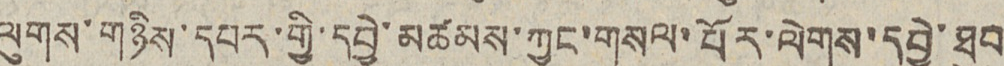ལུགས་གཉིས་དཔར་གྱི་དབྱེ་མཚམས་ཀྱང་གསལ་པོར་ལེགས་དབྱེ་ཐུབ
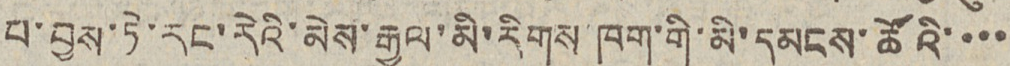པ་བྱས་ཏེ་རང་རེའི་མེས་རྒྱལ་མི་རིགས་ཁག་གི་མི་དམངས་ཚོའི་་་་
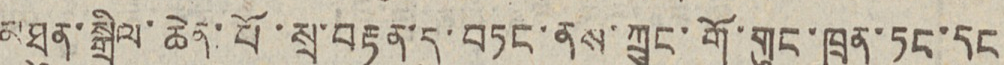མཐུན་སྒྲིལ་ཆེན་པོ་སྲ་བརྟན་དུ་བཏང་ནས་ཀྲུང་གོ་གུང་ཁྲན་ཏང་དང
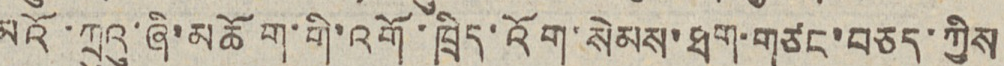མའོ་ཀྲུའུ་ཞི་མཆོག་གི་འགོ་ཁྲིད་འོག་སེམས་ཐག་གཙང་བཅད་ཀྱིས
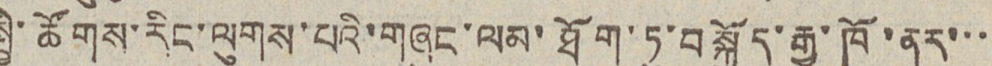སྤྱི་ཚོགས་རིང་ལུགས་པའི་གཞུངས་ལམ་ཐོག་ཏུ་བསྐྱོད་རྒྱུ་ཁོ་ནར་་་
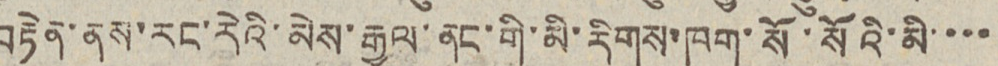བརྟེན་ནས་རང་རེའི་མེས་རྒྱལ་ནང་གི་མི་རིགས་ཁག་སོ་སོའི་མི་་་་
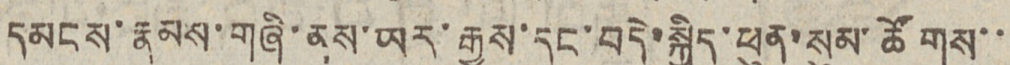དམངས་རྣམས་གཞི་ནས་ཡར་རྒྱས་དང་བདེ་སྐྱིད་ཕུན་སུམ་ཚོགས་་
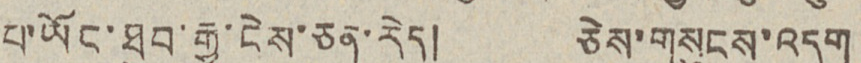པ་ཡོང་ཐུབ་རྒྱུ་ངེས་ཅན་རེད། ཅེས་གསུངས་འདུག
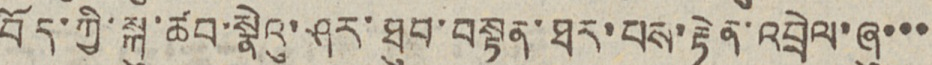བོད་ཀྱི་སྐུ་ཚབ་སྣེའུ་ཤར་ཐུབ་བསྟན་ཐར་པས་རྟེན་འབྲེལ་ཞུ་་་
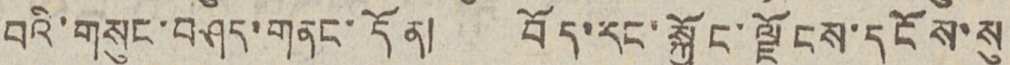བའི་གསུང་བཤད་གནང་དོན། བོད་རང་སྐྱོང་ལྗོངས་དངོས་སུ
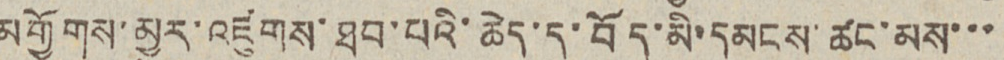མགྱོགས་མྱུར་འཛུགས་ཐུབ་པའི་ཆེད་དུ་བོད་མི་དམངས་ཚང་མས་་་
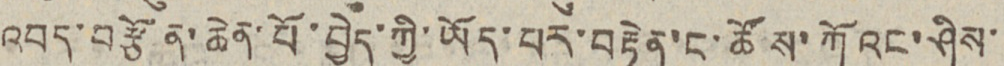འབད་བརྩོན་ཆེན་པོ་བྱེད་ཀྱི་ཡོད་པར་བརྟེན་ང་ཚོས་ཀོའང་ཤིས་
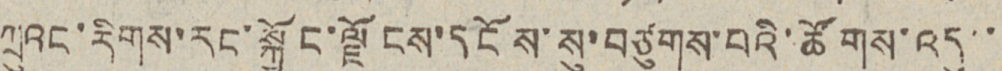ཀྲུའང་རིགས་རང་སྐྱོང་ལྗོངས་དངོས་སུ་བཙུགས་པའི་ཚོགས་འདུ་་་
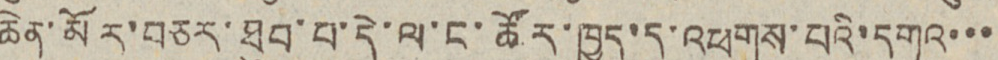ཆེན་མོར་བཅར་ཐུབ་པ་དེ་ལ་ང་ཚོར་ཁྱད་དུ་འཕགས་པའི་དགའ་་་
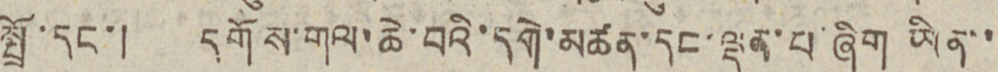སྤྲོ་དང་། དགོས་གླ་ཆེ་བའི་དགེ་མཚན་དང་ལྡན་པ་ཞིག ཡིན་་
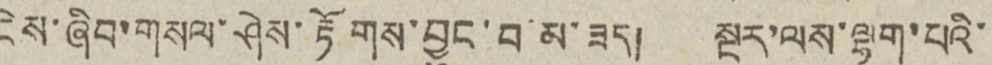ངེས་ཞིབ་གསལ་ཤེས་རྟོགས་བྱུང་བ་མ་ཟད། སྔར་ལས་ལྷག་པའི་
